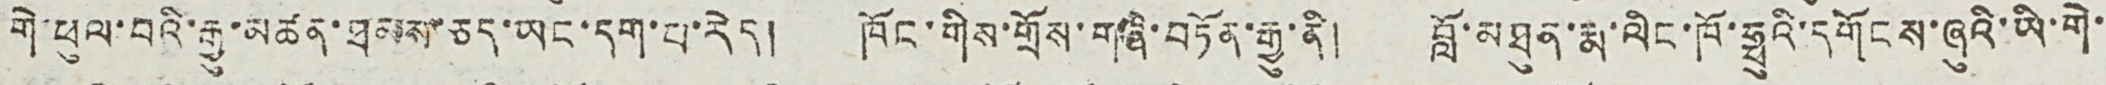གེ་ཕུལ་བའི་རྒྱུ་མཚན་ཐམས་ཅད་ཡང་དག་པ་རེད། ཁོང་གིས་གྲོས་གཞི་བཏོན་རྒྱུ་ནི། བློ་མཐུན་རྨ་ལིང་ཁོ་ཧྥུའི་དགོངས་ཞུའི་ཡི་གེ་
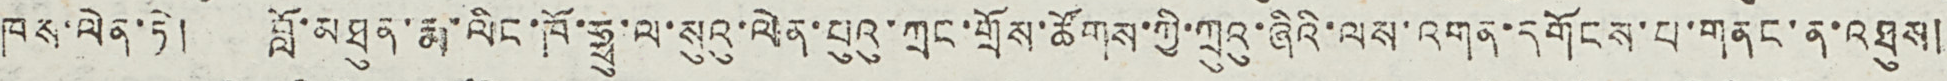ཁས་ལེན་ཏེ། བློ་མཐུན་རྨ་ལིང་ཁོ་ཧྥུ་ལ་སུའུ་ལེན་པུའུ་ཀྲང་གྲོས་ཚོགས་ཀྱི་ཀྲུའུ་ཞིའི་ལས་འགན་དགོངས་པ་གནང་ན་འཐུས།
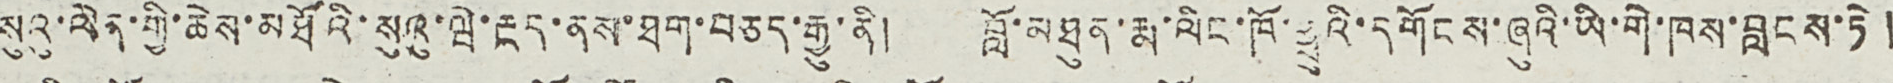སུའུ་ལེན་གྱི་ཆེས་མཐོའི་སུའུ་ཝེ་རྔད་ནས་ཐག་བཅད་རྒྱུ་ནི། བློ་མཐུན་རྨ་ལིང་ཁོ་ཧྥུའི་དགོངས་ཞུའི་ཡི་གེ་ཁས་བླངས་ཏེ །
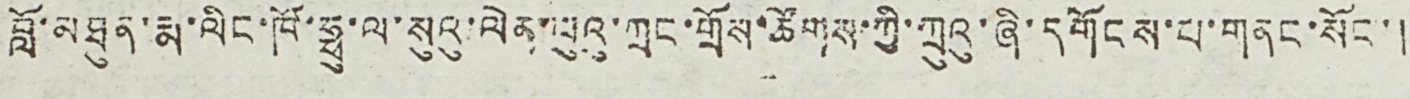བློ་མཐུན་རྨ་ལིང་ཁོ་ཧྥུ་ལ་སུའུ་ལེན་པུའུ་ཀྲང་གྲོས་ཚོགས་ཀྱི་ཀྲུའུ་ཞི་དོངས་པ་གནང་སོང་།
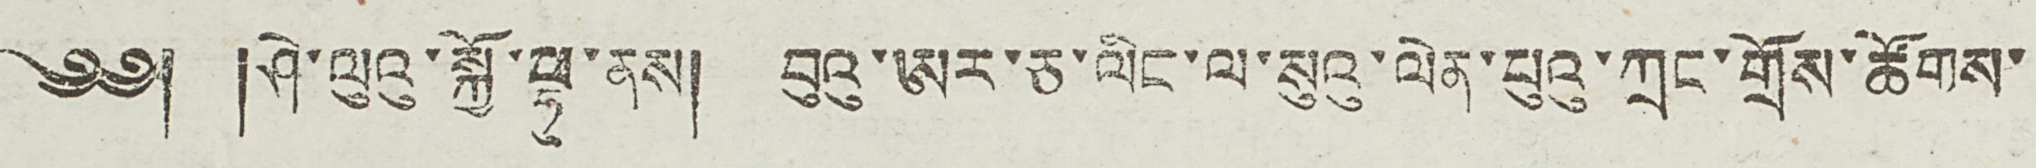༄༅། །ཤེ་ལུའུ་སྐྱོ་ཧྥུ་ནས། བུའུ་ཨར་ཅ་ལིང་ལ་སུའུ་ལེན་པུའུ་ཀྲང་གྲོས་ཚོགས་
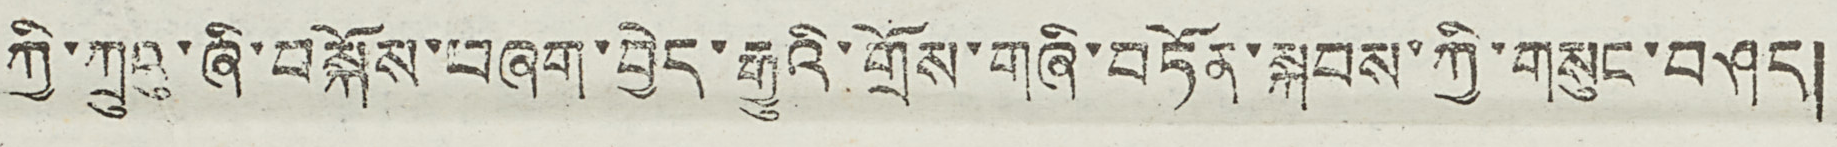ཀྱི་ཀྲུའུ་ཞི་བསྐོས་བཞག་བྱེད་རྒྱུའི་གྲོས་གཞི་བཏོན་སྐབས་ཀྱི་གསུང་བཤད།
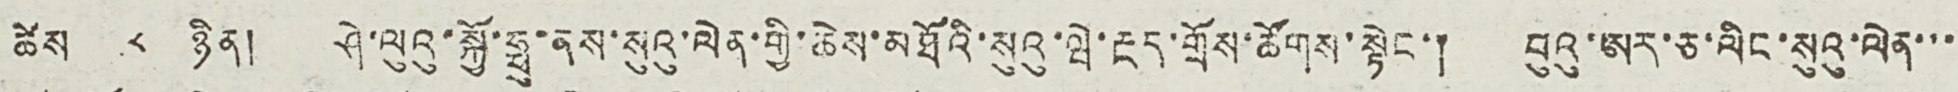ཚེས ༨ ཉིན། ཤེ་ལུའུ་སྐྱོ་ཧྥུ་ནས་སུའུ་ལེན་གྱི་ཆེས་མཐོའི་སུའུ་ཝེ་རྔད་གྲོས་ཚོགས་སྟེང་། བུའུ་ཨར་ཅ་ལིང་སུའུ་ལེན་་་
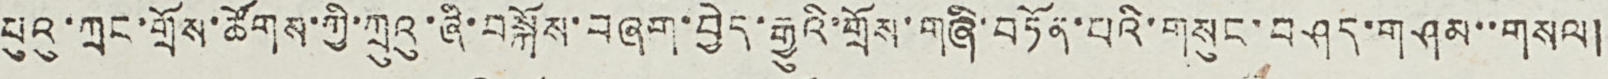པུའུ་ཀྲང་གྲོས་ཚོགས་ཀྱི་ཀྲུའུ་ཞི་བསྐོས་བཞག་བྱེད་རྒྱུའི་གྲོས་གཞི་བཏོན་པའི་གསུང་བཤད་གཤམ་་གསལ།
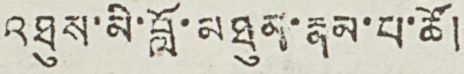འཐུས་མི་བློ་མཐུན་རྣམ་པ་ཚོ།
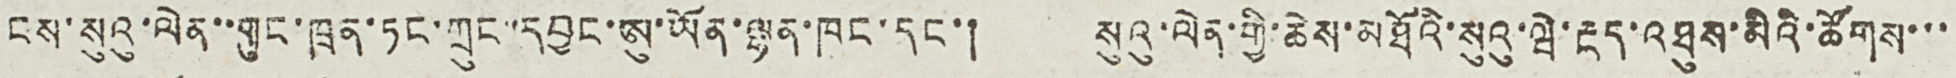ངས་སུའུ་ལེན་་གུང་ཁྲན་ཏང་ཀྲུང་་དབྱང་ཨུ་ཡོན་ལྷན་ཁང་དང་། སུའུ་ལེན་གྱི་ཆེས་མཐོའི་སུའུ་ཝེ་རྔད་འཐུས་མིའི་ཚོགས་་་
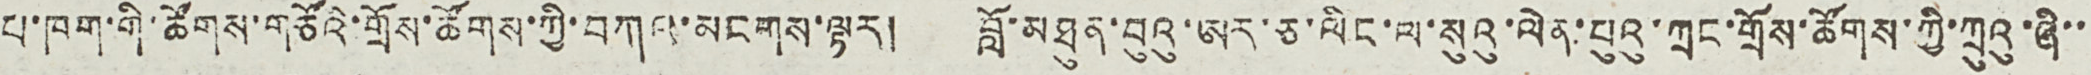པ་ཁག་གི་ཚོགས་གཙོའི་གྲོས་ཚོགས་ཀྱི་བཀའ་མངགས་ལྟར། བློ་མཐུན་བུའུ་ཨར་ཅ་ལིང་ལ་སུའུ་ལེན་པུའུ་ཀྲང་གྲོས་ཚོགས་ཀྱི་ཀྲུའུ་ཞི་་
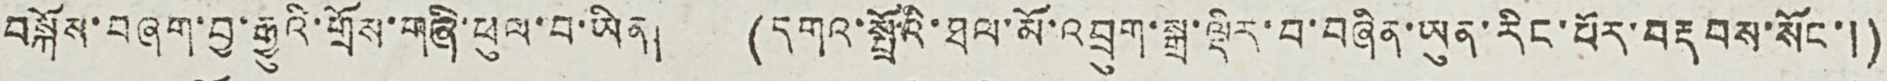བསྐོས་བཞག་བྱ་རྒྱུའི་གྲོས་གཞི་ཕུལ་བ་ཡིན། (དགའ་སྤྲོའི་ཐལ་མོ་འབྲུག་སྒྲ་ལྡིར་བ་བཞིན་ཡུན་རིང་པོར་བརྡབས་སོང་།)
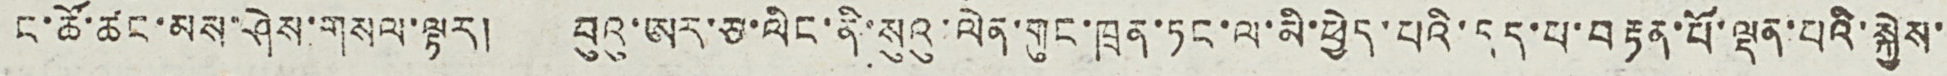ང་ཚོ་ཚང་མས་ཤེས་གསལ་ལྟར། བུའུ་ཨར་ཅ་ལིང་ནི་སུའུ་ལེན་གུང་ཁྲན་ཏང་ལ་མི་ཕྱེད་པའི་དད་པ་བརྟན་པོ་ལྡན་པའི་སྐྱེས་
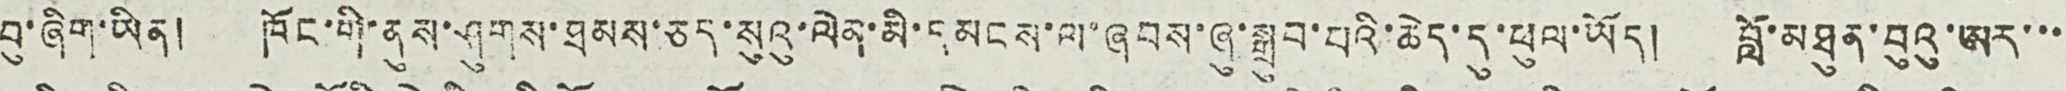བུ་ཞིག་ཡིན། ཁོང་གི་ནུས་ཤུགས་ཐམས་ཅད་སུའུ་ལེན་མི་དམངས་ལ་ཞབས་ཞུ་སྒྲུབ་པའི་ཆེད་དུ་ཕུལ་ཡོད། བློ་མཐུན་བུའུ་ཨར་་་
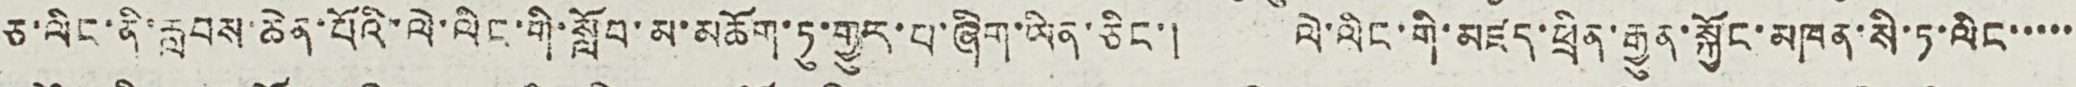ཅ་ལིང་ནི་རླབས་ཆེན་པོའི་ལེ་ལིང་གི་སློབ་མ་མཆོག་ཏུ་གྱུར་བ་ཞིག་ཡིན་ཅིང་། ལེ་ལིང་མཛད་ཕྲིན་རྒྱུན་སྐྱོང་མཁན་སི་ཏ་ལིང་་་་་
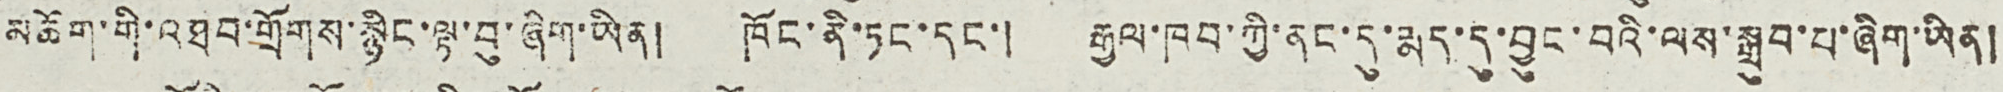མཆོག་གི་འཐབ་གྲོགས་སྙིང་ལྟ་བུ་ཞིག་ཡིན། ཁོང་ནི་ཏང་དང་། རྒྱལ་ཁབ་ཀྱི་ནང་དུ་རྨད་དུ་བྱུང་བའི་ལས་སྒྲུབ་པ་ཞིག་ཡིན།
